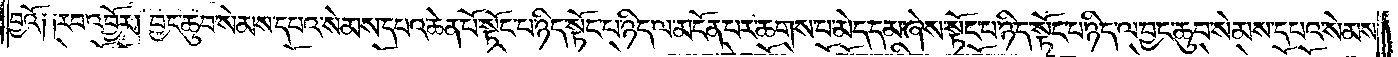བྱའོ། །རབ་འབྱོར། བྱང་ཆུབ་སེམས་དཔའ་སེམས་དཔའ་ཆེན་པོ་སྟོང་པ་ཉིད་སྟོང་པ་ཉིད་ལ་མངོན་པར་ཆགས་པ་མེད་དམ་ཞེས་སྟོང་པ་ཉིད་སྟོང་པ་ཉིད་ལ་བྱང་ཆུབ་སེམས་དཔའ་སེམས་
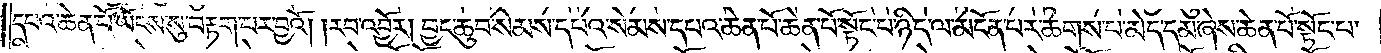དཔའ་ཆེན་པོ་ཡོངས་སུ་བརྟག་པར་བྱའོ། །རབ་འབྱོར། བྱང་ཆུབ་སེམས་དཔའ་སེམས་དཔའ་ཆེན་པོ་ཆེན་པོ་སྟོང་པ་ཉིད་ལ་མངོན་པར་ཆགས་པ་མེད་དམ་ཞེས་ཆེན་པོ་སྟོང་པ་
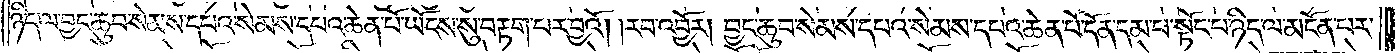ཉིད་ལ་བྱང་ཆུབ་སེམས་དཔའ་སེམས་དཔའ་ཆེན་པོ་ཡོངས་སུ་བརྟག་པར་བྱའོ། །རབ་འབྱོར། བྱང་ཆུབ་སེམས་དཔའ་སེམས་དཔའ་ཆེན་པོ་དོན་དམ་པ་སྟོང་པ་ཉིད་ལ་མངོན་པར་
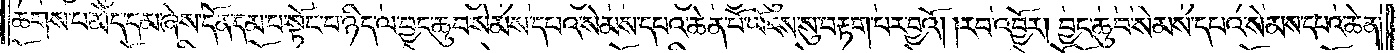ཆགས་པ་མེད་དམ་ཞེས་དོན་དམ་པ་སྟོང་པ་ཉིད་ལ་བྱང་ཆུབ་སེམས་དཔའ་སེམས་དཔའ་ཆེན་པོ་ཡོངས་སུ་བརྟག་པར་བྱའོ། །རབ་འབྱོར། བྱང་ཆུབ་སེམས་དཔའ་སེམས་དཔའ་ཆེན་
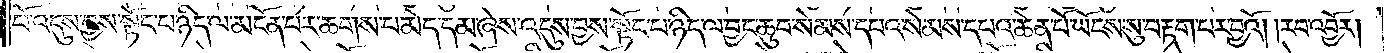པོ་འདུས་བྱས་སྟོང་པ་ཉིད་ལ་མངོན་པར་ཆགས་པ་མེད་དམ་ཞེས་འདུས་བྱས་སྟོང་པ་ཉིད་ལ་བྱང་ཆུབ་སེམས་དཔའ་སེམས་དཔའ་ཆེན་པོ་ཡོངས་སུ་བརྟག་པར་བྱའོ། །རབ་འབྱོར།
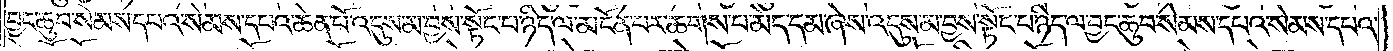བྱང་ཆུབ་སེམས་དཔའ་སེམས་དཔའ་ཆེན་པོ་འདུས་མ་བྱས་སྟོང་པ་ཉིད་ལ་མངོན་པར་ཆགས་པ་མེད་དམ་ཞེས་འདུས་མ་བྱས་སྟོང་པ་ཉིད་ལ་བྱང་ཆུབ་སེམས་དཔའ་སེམས་དཔའ་
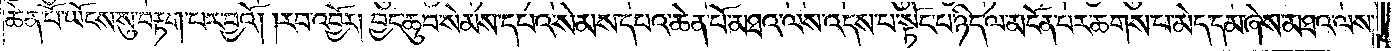ཆེན་པོ་ཡོངས་སུ་བརྟག་པར་བྱའོ། །རབ་འབྱོར། བྱང་ཆུབ་སེམས་དཔའ་སེམས་དཔའ་ཆེན་པོ་མཐའ་ལས་འདས་པ་སྟོང་པ་ཉིད་ལ་མངོན་པར་ཆགས་པ་མེད་དམ་ཞེས་མཐའ་ལས་
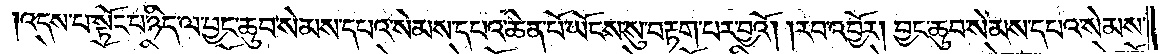འདས་པ་སྟོང་པ་ཉིད་ལ་བྱང་ཆུབ་སེམས་དཔའ་སེམས་དཔའ་ཆེན་པོ་ཡོངས་སུ་བརྟག་པར་བྱའོ། །རབ་འབྱོར། བྱང་ཆུབ་སེམས་དཔའ་སེམས་
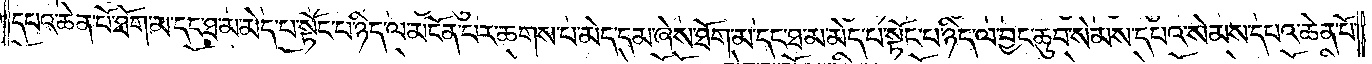དཔའ་ཆེན་པོ་ཐོག་མ་དང་ཐ་མ་མེད་པ་སྟོང་པ་ཉིད་ལ་མངོན་པར་ཆགས་པ་མེད་དམ་ཞེས་ཐོག་མ་དང་ཐ་མ་མེད་པ་སྟོང་པ་ཉིད་ལ་བྱང་ཆུབ་སེམས་དཔའ་སེམས་དཔའ་ཆེན་པོ་
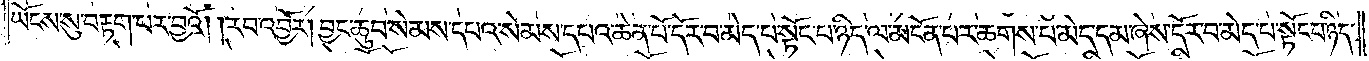ཡོངས་སུ་བརྟག་པར་བྱའོ། །རབ་འབྱོར། བྱང་ཆུབ་སེམས་དཔའ་སེམས་དཔའ་ཆེན་པོ་དོར་བ་མེད་པ་སྟོང་པ་ཉིད་ལ་མངོན་པར་ཆགས་པ་མེད་དམ་ཞེས་དོར་བ་མེད་པ་སྟོང་པ་ཉིད་
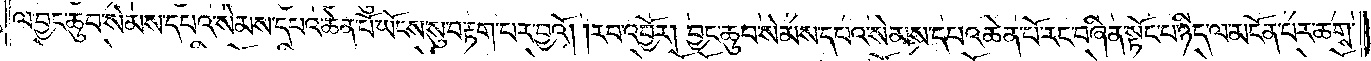ལ་བྱང་ཆུབ་སེམས་དཔའ་སེམས་དཔའ་ཆེན་པོ་ཡོངས་སུ་བརྟག་པར་བྱའོ། །རབ་འབྱོར། བྱང་ཆུབ་སེམས་དཔའ་སེམས་དཔའ་ཆེན་པོ་རང་བཞིན་སྟོང་པ་ཉིད་ལ་མངོན་པར་ཆགས་
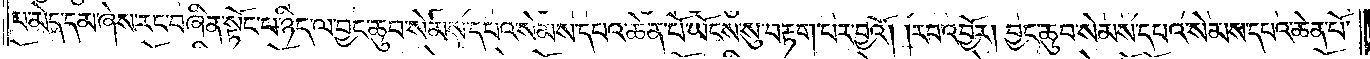པ་མེད་དམ་ཞེས་རང་བཞིན་སྟོང་པ་ཉིད་ལ་བྱང་ཆུབ་སེམས་དཔའ་སེམས་དཔའ་ཆེན་པོ་ཡོངས་སུ་བརྟག་པར་བྱའོ། །རབ་འབྱོར། བྱང་ཆུབ་སེམས་དཔའ་སེམས་དཔའ་ཆེན་པོ་
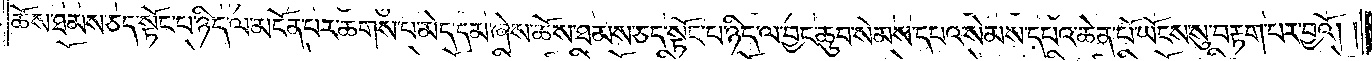ཆོས་ཐམས་ཅད་སྟོང་པ་ཉིད་ལ་མངོན་པར་ཆགས་པ་མེད་དམ་ཞེས་ཆོས་ཐམས་ཅད་སྟོང་པ་ཉིད་ལ་བྱང་ཆུབ་སེམས་དཔའ་སེམས་དཔའ་ཆེན་པོ་ཡོངས་སུ་བརྟག་པར་བྱའོ། །
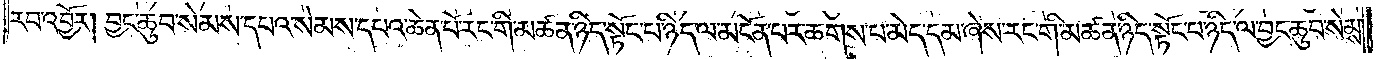རབ་འབྱོར། བྱང་ཆུབ་སེམས་དཔའ་སེམས་དཔའ་ཆེན་པོ་རང་གི་མཚན་ཉིད་སྟོང་པ་ཉིད་ལ་མངོན་པར་ཆགས་པ་མེད་དམ་ཞེས་རང་གི་མཚན་ཉིད་སྟོང་པ་ཉིད་ལ་བྱང་ཆུབ་སེམས་
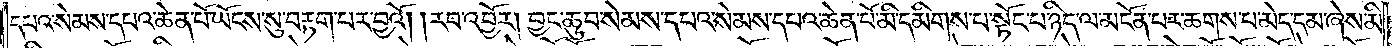དཔའ་སེམས་དཔའ་ཆེན་པོ་ཡོངས་སུ་བརྟག་པར་བྱའོ། །རབ་འབྱོར། བྱང་ཆུབ་སེམས་དཔའ་སེམས་དཔའ་ཆེན་པོ་མི་དམིགས་པ་སྟོང་པ་ཉིད་ལ་མངོན་པར་ཆགས་པ་མེད་དམ་ཞེས་མི་
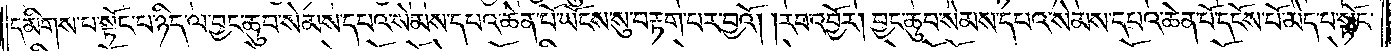དམིགས་པ་སྟོང་པ་ཉིད་ལ་བྱང་ཆུབ་སེམས་དཔའ་སེམས་དཔའ་ཆེན་པོ་ཡོངས་སུ་བརྟག་པར་བྱའོ། །རབ་འབྱོར། བྱང་ཆུབ་སེམས་དཔའ་སེམས་དཔའ་ཆེན་པོ་དངོས་པོ་མེད་པ་སྟོང་
